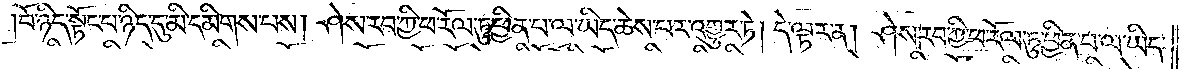བོ་ཉིད་སྟོང་པ་ཉིད་དུ་མི་དམིགས་པས། ཤེས་རབ་ཀྱི་ཕ་རོལ་ཏུ་ཕྱིན་པ་ལ་ཡིད་ཆེས་པར་འགྱུར་ཏེ། དེ་ལྟར་ན། ཤེས་རབ་ཀྱི་ཕ་རོལ་ཏུ་ཕྱིན་པ་ལ་ཡིད་
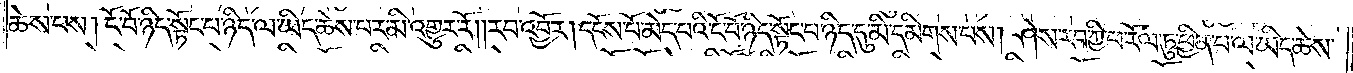ཆེས་པས། ངོ་བོ་ཉིད་སྟོང་པ་ཉིད་ལ་ཡིད་ཆེས་པར་མི་འགྱུར་རོ། །རབ་འབྱོར། དངོས་པོ་མེད་པའི་ངོ་བོ་ཉིད་སྟོང་པ་ཉིད་དུ་མི་དམིགས་པས། ཤེས་རབ་ཀྱི་ཕ་རོལ་ཏུ་ཕྱིན་པ་ལ་ཡིད་ཆེས་
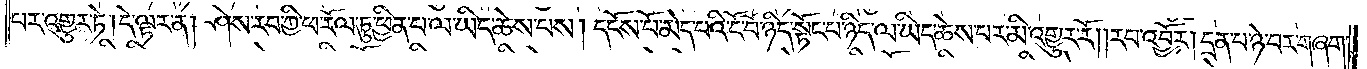པར་འགྱུར་ཏེ། དེ་ལྟར་ན། ཤེས་རབ་ཀྱི་ཕ་རོལ་ཏུ་ཕྱིན་པ་ལ་ཡིད་ཆེས་པས། དངོས་པོ་མེད་པའི་ངོ་བོ་ཉིད་སྟོང་པ་ཉིད་ལ་ཡིད་ཆེས་པར་མི་འགྱུར་རོ། །རབ་འབྱོར། དྲན་པ་ཉེ་བར་གཞག་
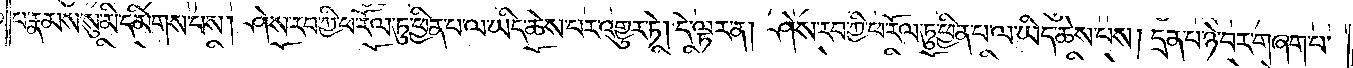པ་རྣམས་སུ་མི་དམིགས་པས། ཤེས་རབ་ཀྱི་ཕ་རོལ་ཏུ་ཕྱིན་པ་ལ་ཡིད་ཆེས་པར་འགྱུར་ཏེ། དེ་ལྟར་ན། ཤེས་རབ་ཀྱི་ཕ་རོལ་ཏུ་ཕྱིན་པ་ལ་ཡིད་ཆེས་པས། དྲན་པ་ཉེ་བར་གཞག་པ་
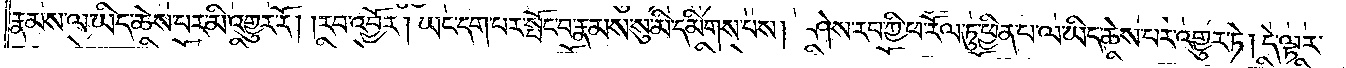རྣམས་ལ་ཡིད་ཆེས་པར་མི་འགྱུར་རོ། །རབ་འབྱོར། ཡང་དག་པར་སྤོང་བ་རྣམས་སུ་མི་དམིགས་པས། ཤེས་རབ་ཀྱི་ཕ་རོལ་ཏུ་ཕྱིན་པ་ལ་ཡིད་ཆེས་པར་འགྱུར་ཏེ། དེ་ལྟར་
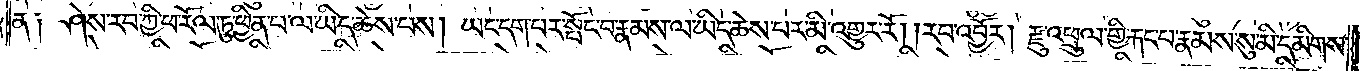ན༑ ཤེས་རབ་ཀྱི་ཕ་རོལ་ཏུ་ཕྱིན་པ་ལ་ཡིད་ཆེས་པས། ཡང་དག་པར་སྤོང་བ་རྣམས་ལ་ཡིད་ཆེས་པར་མི་འགྱུར་རོ། །རབ་འབྱོར། རྫུ་འཕྲུལ་གྱི་རྐང་པ་རྣམས་སུ་མི་དམིགས་
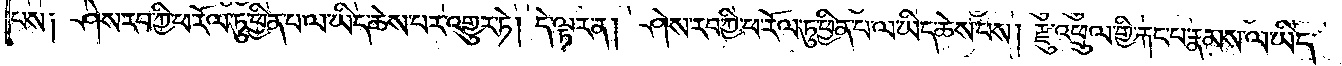པས༑ ཤེས་རབ་ཀྱི་ཕ་རོལ་ཏུ་ཕྱིན་པ་ལ་ཡིད་ཆེས་པར་འགྱུར་ཏེ། དེ་ལྟར་ན། ཤེས་རབ་ཀྱི་ཕ་རོལ་ཏུ་ཕྱིན་པ་ལ་ཡིད་ཆེས་པས། རྫུ་འཕྲུལ་གྱི་རྐང་པ་རྣམས་ལ་ཡིད་
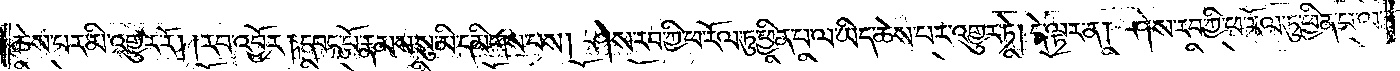ཆེས་པར་མི་འགྱུར་རོ། །རབ་འབྱོར། དབང་པོ་རྣམས་སུ་མི་དམིགས་པས། ཤེས་རབ་ཀྱི་ཕ་རོལ་ཏུ་ཕྱིན་པ་ལ་ཡིད་ཆེས་པར་འགྱུར་ཏེ། དེ་ལྟར་ན། ཤེས་རབ་ཀྱི་ཕ་རོལ་ཏུ་ཕྱིན་པ་ལ་
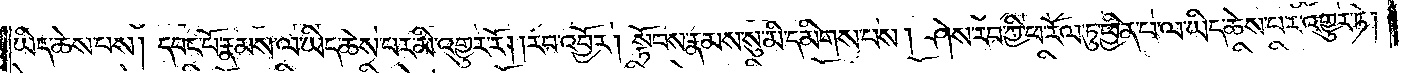ཡིད་ཆེས་པས། དབང་པོ་རྣམས་ལ་ཡིད་ཆེས་པར་མི་འགྱུར་རོ། །རབ་འབྱོར། སྟོབས་རྣམས་སུ་མི་དམིགས་པས། ཤེས་རབ་ཀྱི་ཕ་རོལ་ཏུ་ཕྱིན་པ་ལ་ཡིད་ཆེས་པར་འགྱུར་ཏེ།
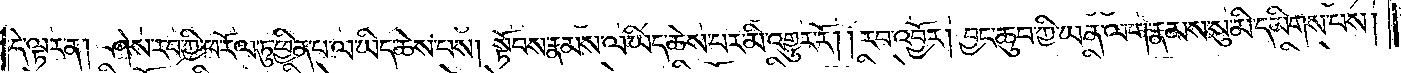དེ་ལྟར་ན། ཤེས་རབ་ཀྱི་ཕ་རོལ་ཏུ་ཕྱིན་པ་ལ་ཡིད་ཆེས་པས། སྟོབས་རྣམས་ལ་ཡིད་ཆེས་པར་མི་འགྱུར་རོ། །རབ་འབྱོར། བྱང་ཆུབ་ཀྱི་ཡན་ལག་རྣམས་སུ་མི་དམིགས་པས།
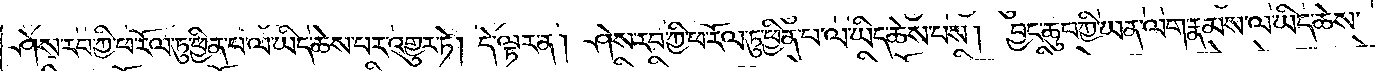ཤེས་རབ་ཀྱི་ཕ་རོལ་ཏུ་ཕྱིན་པ་ལ་ཡིད་ཆེས་པར་འགྱུར་ཏེ། དེ་ལྟར་ན། ཤེས་རབ་ཀྱི་ཕ་རོལ་ཏུ་ཕྱིན་པ་ལ་ཡིད་ཆེས་པས། བྱང་ཆུབ་ཀྱི་ཡན་ལག་རྣམས་ལ་ཡིད་ཆེས་
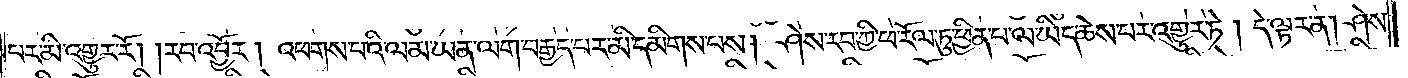པར་མི་འགྱུར་རོ། །རབ་འབྱོར། འཕགས་པའི་ལམ་ཡན་ལག་བརྒྱད་པར་མི་དམིགས་པས། ཤེས་རབ་ཀྱི་ཕ་རོལ་ཏུ་ཕྱིན་པ་ལ་ཡིད་ཆེས་པར་འགྱུར་ཏེ། དེ་ལྟར་ན། ཤེས་
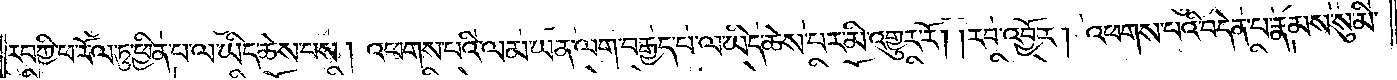རབ་ཀྱི་ཕ་རོལ་ཏུ་ཕྱིན་པ་ལ་ཡིད་ཆེས་པས། འཕགས་པའི་ལམ་ཡན་ལག་བརྒྱད་པ་ལ་ཡིད་ཆེས་པར་མི་འགྱུར་རོ། །རབ་འབྱོར། འཕགས་པའི་བདེན་པ་རྣམས་སུ་མི་
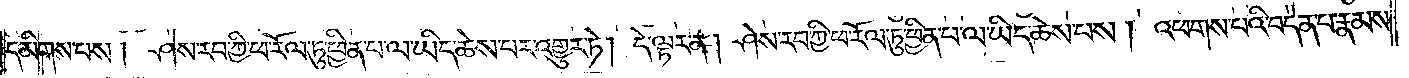དམིགས་པས། ཤེས་རབ་ཀྱི་ཕ་རོལ་ཏུ་ཕྱིན་པ་ལ་ཡིད་ཆེས་པར་འགྱུར་ཏེ། དེ་ལྟར་ན། ཤེས་རབ་ཀྱི་ཕ་རོལ་ཏུ་ཕྱིན་པ་ལ་ཡིད་ཆེས་པས། འཕགས་པའི་བདེན་པ་རྣམས་
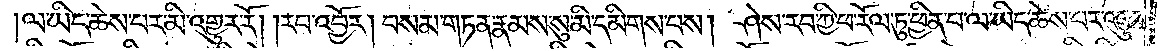ལ་ཡིད་ཆེས་པར་མི་འགྱུར་རོ། །རབ་འབྱོར། བསམ་གཏན་རྣམས་སུ་མི་དམིགས་པས། ཤེས་རབ་ཀྱི་ཕ་རོལ་ཏུ་ཕྱིན་པ་ལ་ཡིད་ཆེས་པར་འགྱུར་
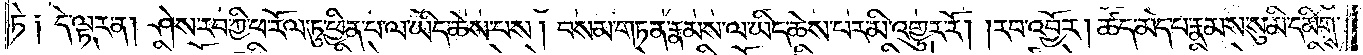ཏེ༑ དེ་ལྟར་ན། ཤེས་རབ་ཀྱི་ཕ་རོལ་ཏུ་ཕྱིན་པ་ལ་ཡིད་ཆེས་པས། བསམ་གཏན་རྣམས་ལ་ཡིད་ཆེས་པར་མི་འགྱུར་རོ། །རབ་འབྱོར། ཚད་མེད་པ་རྣམས་སུ་མི་དམིགས་
